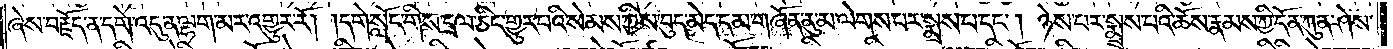ཞེས་བརྗོད་ན་དགེ་འདུན་ལྷག་མར་འགྱུར་རོ། །དགེ་སློང་གིས་དྲལ་ཅིང་གྱུར་པའི་སེམས་ཀྱིས་བུད་མེད་དམ་གཞོན་ནུ་མ་ལེགས་པར་སྨྲས་པ་དང༌། ཉེས་པར་སྨྲས་པའི་ཆོས་རྣམས་ཀྱི་དོན་ཀུན་ཤེས་
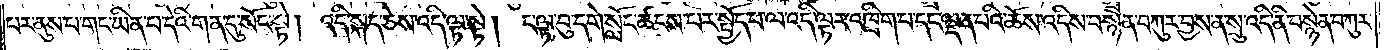པར་ནུས་པ་གང་ཡིན་པ་དེའི་གན་དུ་སོང་སྟེ། འདི་སྐད་ཅེས་འདི་ལྟ་སྟེ། ང་ལྟ་བུ་དགེ་སློང་ཚངས་པར་སྤྱོད་པ་ལ་འདི་ལྟར་འཁྲིག་པ་དང་ལྡན་པའི་ཆོས་འདིས་བསྙེན་བཀུར་བྱས་ན་སྲུ་འདི་ནི་བསྙེན་བཀུར་
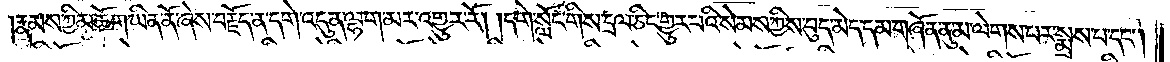།རྣམས་ཀྱི་མཆོག་ཡིན་ནོ་ཞེས་བརྗོད་ན་དགེ་འདུན་ལྷག་མར་འགྱུར་རོ། །དགེ་སློང་གིས་དྲལ་ཅིང་གྱུར་པའི་སེམས་ཀྱིས་བུད་མེད་དམ་གཞོན་ནུ་མ་ལེགས་པར་སྨྲས་པ་དང༌།
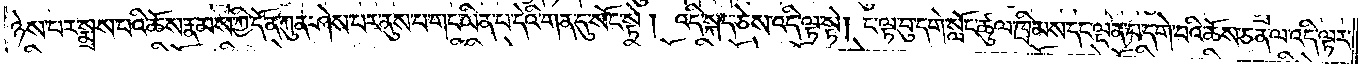ཉེས་པར་སྨྲས་པའི་ཆོས་རྣམས་ཀྱི་དོན་ཀུན་ཤེས་པར་ནུས་པ་གང་ཡིན་པ་དེའི་གན་དུ་སོང་སྟེ། འདི་སྐད་ཅེས་འདི་ལྟ་སྟེ། ང་ལྟ་བུ་དགེ་སློང་ཚུལ་ཁྲིམས་དང་ལྡན་པ་དགེ་བའི་ཆོས་ཅན་ལ་འདི་ལྟར་
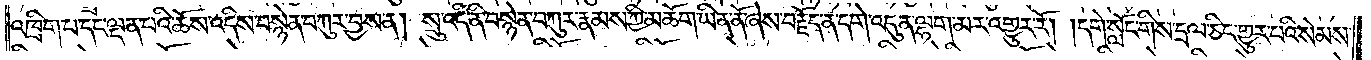འཁྲིག་པ་དང་ལྡན་པའི་ཆོས་འདིས་བསྙེན་བཀུར་བྱས་ན། སྲུ་འདི་ནི་བསྙེན་བཀུར་རྣམས་ཀྱི་མཆོག་ཡིན་ནོ་ཞེས་བརྗོད་ན་དགེ་འདུན་ལྷག་མར་འགྱུར་རོ། །དགེ་སློང་གིས་དྲལ་ཅིང་གྱུར་པའི་སེམས་
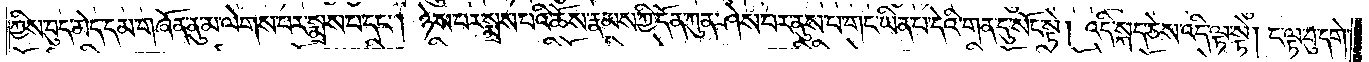ཀྱིས་བུད་མེད་དམ་གཞོན་ནུ་མ་ལེགས་པར་སྨྲས་པ་དང༌། ཉེས་པར་སྨྲས་པའི་ཆོས་རྣམས་ཀྱི་དོན་ཀུན་ཤེས་པར་ནུས་པ་གང་ཡིན་པ་དེའི་གན་དུ་སོང་སྟེ། འདི་སྐད་ཅེས་འདི་ལྟ་སྟེ། ང་ལྟ་བུ་དགེ་
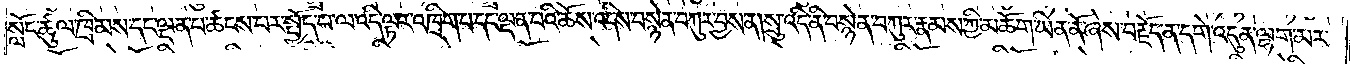སློང་ཚུལ་ཁྲིམས་དང་ལྡན་པ་ཚངས་པར་སྤྱོད་པ་ལ་འདི་ལྟར་འཁྲིག་པ་དང་ལྡན་པའི་ཆོས་འདིས་བསྙེན་བཀུར་བྱས་ན། སྲུ་འདི་ནི་བསྙེན་བཀུར་རྣམས་ཀྱི་མཆོག་ཡིན་ནོ་ཞེས་བརྗོད་ན་དགེ་འདུན་ལྷག་མར་
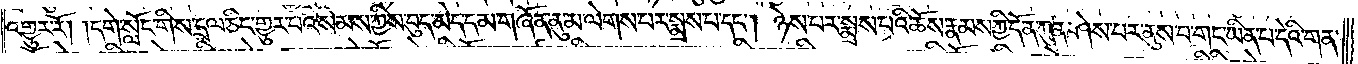འགྱུར་རོ། །དགེ་སློང་གིས་དྲལ་ཅིང་གྱུར་པའི་སེམས་ཀྱིས་བུད་མེད་དམ་གཞོན་ནུ་མ་ལེགས་པར་སྨྲས་པ་དང༌། ཉེས་པར་སྨྲས་པའི་ཆོས་རྣམས་ཀྱི་དོན་ཀུན་ཤེས་པར་ནུས་པ་གང་ཡིན་པ་དེའི་གན་
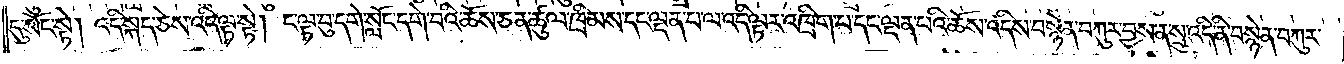དུ་སོང་སྟེ། འདི་སྐད་ཅེས་འདི་ལྟ་སྟེ། ང་ལྟ་བུ་དགེ་སློང་དགེ་བའི་ཆོས་ཅན་ཚུལ་ཁྲིམས་དང་ལྡན་པ་ལ་འདི་ལྟར་འཁྲིག་པ་དང་ལྡན་པའི་ཆོས་འདིས་བསྙེན་བཀུར་བྱས་ན་སྲུ་འདི་ནི་བསྙེན་བཀུར་
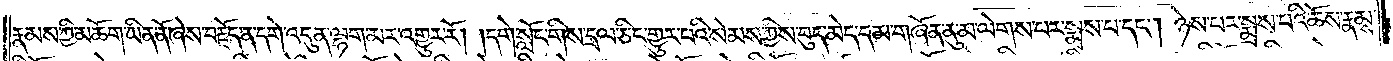རྣམས་ཀྱི་མཆོག་ཡིན་ནོ་ཞེས་བརྗོད་ན་དགེ་འདུན་ལྷག་མར་འགྱུར་རོ། །དགེ་སློང་གིས་དྲལ་ཅིང་གྱུར་པའི་སེམས་ཀྱིས་བུད་མེད་དམ་གཞོན་ནུ་མ་ལེགས་པར་སྨྲས་པ་དང༌། ཉེས་པར་སྨྲས་པའི་ཆོས་རྣམས་
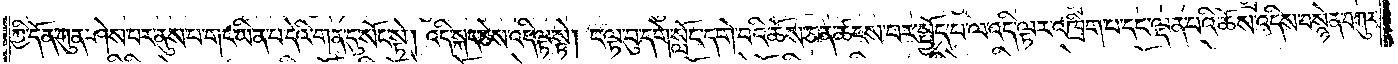ཀྱི་དོན་ཀུན་ཤེས་པར་ནུས་པ་གང་ཡིན་པ་དེའི་གན་དུ་སོང་སྟེ། འདི་སྐད་ཅེས་འདི་ལྟ་སྟེ། ང་ལྟ་བུ་དགེ་སློང་དགེ་བའི་ཆོས་ཅན་ཚངས་པར་སྤྱོད་པ་ལ་འདི་ལྟར་འཁྲིག་པ་དང་ལྡན་པའི་ཆོས་འདིས་བསྙེན་བཀུར་
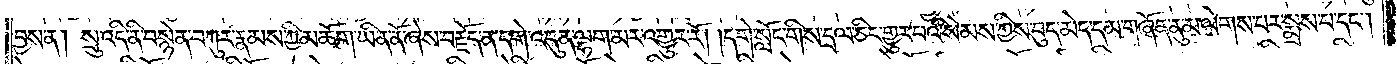བྱས་ན། སྲུ་འདི་ནི་བསྙེན་བཀུར་རྣམས་ཀྱི་མཆོག་ཡིན་ནོ་ཞེས་བརྗོད་ན་དགེ་འདུན་ལྷག་མར་འགྱུར་རོ། །དགེ་སློང་གིས་དྲལ་ཅིང་གྱུར་པའི་སེམས་ཀྱིས་བུད་མེད་དམ་གཞོན་ནུ་མ་ལེགས་པར་སྨྲས་པ་དང༌།
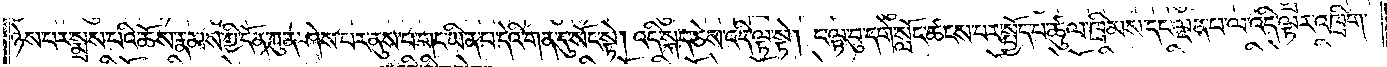ཉེས་པར་སྨྲས་པའི་ཆོས་རྣམས་ཀྱི་དོན་ཀུན་ཤེས་པར་ནུས་པ་གང་ཡིན་པ་དེའི་གན་དུ་སོང་སྟེ། འདི་སྐད་ཅེས་འདི་ལྟ་སྟེ། ང་ལྟ་བུ་དགེ་སློང་ཚངས་པར་སྤྱོད་པ་ཚུལ་ཁྲིམས་དང་ལྡན་པ་ལ་འདི་ལྟར་འཁྲིག་
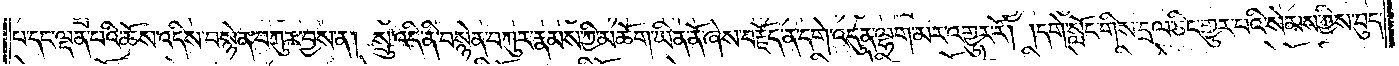པ་དང་ལྡན་པའི་ཆོས་འདིས་བསྙེན་བཀུར་བྱས་ན། སྲུ་འདི་ནི་བསྙེན་བཀུར་རྣམས་ཀྱི་མཆོག་ཡིན་ནོ་ཞེས་བརྗོད་ན་དགེ་འདུན་ལྷག་མར་འགྱུར་རོ། །དགེ་སློང་གིས་དྲལ་ཅིང་གྱུར་པའི་སེམས་ཀྱིས་བུད་
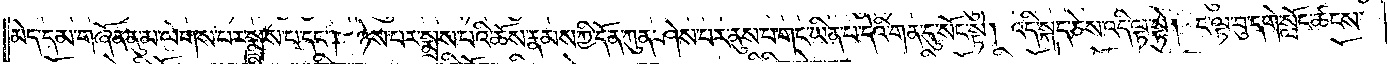མེད་དམ་གཞོན་ནུ་མ་ལེགས་པར་སྨྲས་པ་དང༌། ཉེས་པར་སྨྲས་པའི་ཆོས་རྣམས་ཀྱི་དོན་ཀུན་ཤེས་པར་ནུས་པ་གང་ཡིན་པ་དེའི་གན་དུ་སོང་སྟེ། འདི་སྐད་ཅེས་འདི་ལྟ་སྟེ། ང་ལྟ་བུ་དགེ་སློང་ཚངས་
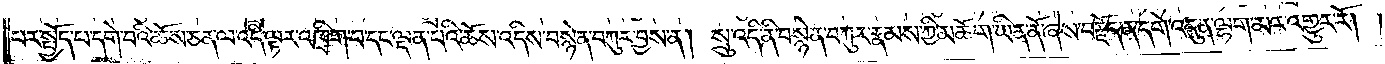པར་སྤྱོད་པ་དགེ་བའི་ཆོས་ཅན་ལ་འདི་ལྟར་འཁྲིག་པ་དང་ལྡན་པའི་ཆོས་འདིས་བསྙེན་བཀུར་བྱས་ན། སྲུ་འདི་ནི་བསྙེན་བཀུར་རྣམས་ཀྱི་མཆོག་ཡིན་ནོ་ཞེས་བརྗོད་ན་དགེ་འདུན་ལྷག་མར་འགྱུར་རོ། །
